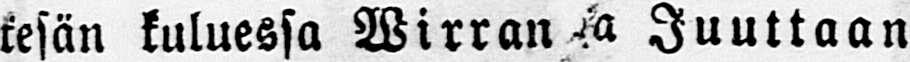kesän kuluessa Wirran ja Juuttaan
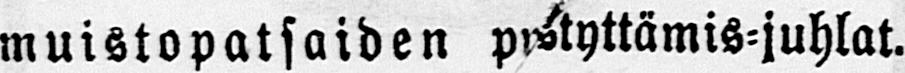muistopatsaiden pystyttämis-juhlat.
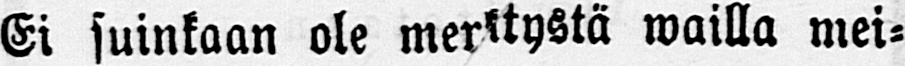Ei suinkaan ole merktystä wailla mei-
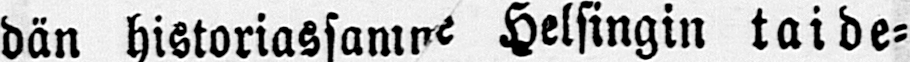dän Helsingin taide-
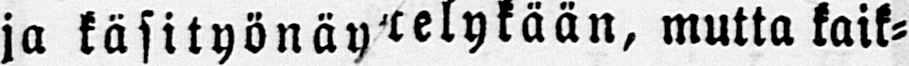ja k äsitynönäytelykään, mutta kaik-
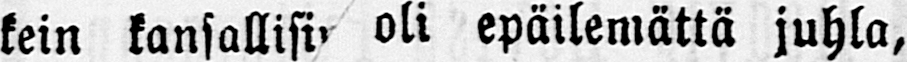kein kansallisin oli epäilemättä juhla,
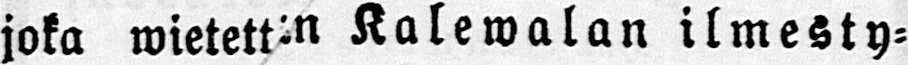joka wietett'in Kalewalan ilmesty-
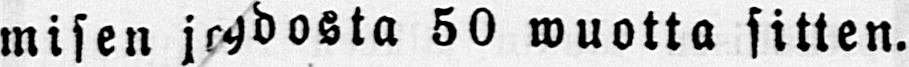misen johdosta 50 wuotta sitten.
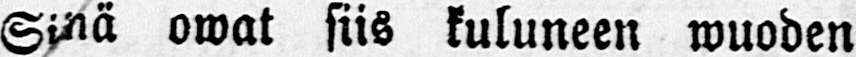Sinä owat siis kuluneen wuoden
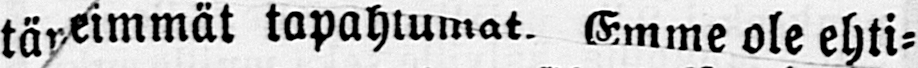täreimmät tapahtumat. Emme ole ehti-
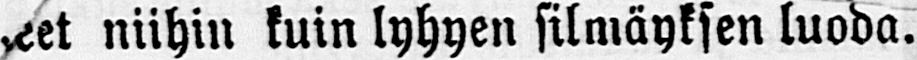eet niihin kuin lyhyen silmäyksen luoda.
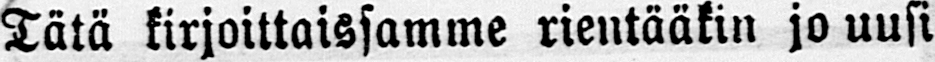Tätä kirjoittaissamme rientääkin jo uusi
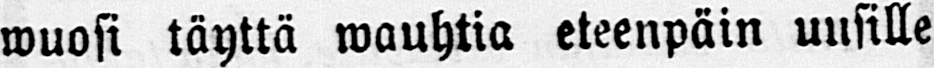wuosi täyttä wauhtia eteenpäin uusille
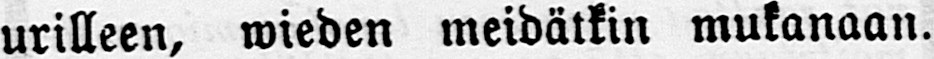urilleen, wieden meidätkin mukanaan.
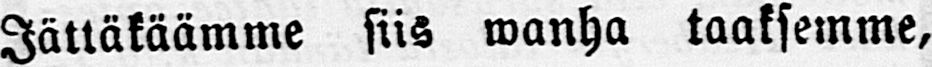Jättäkäämme siis wanha taaksemme,
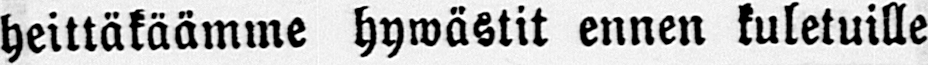heittäkäämme hywästit ennen kuletuille
